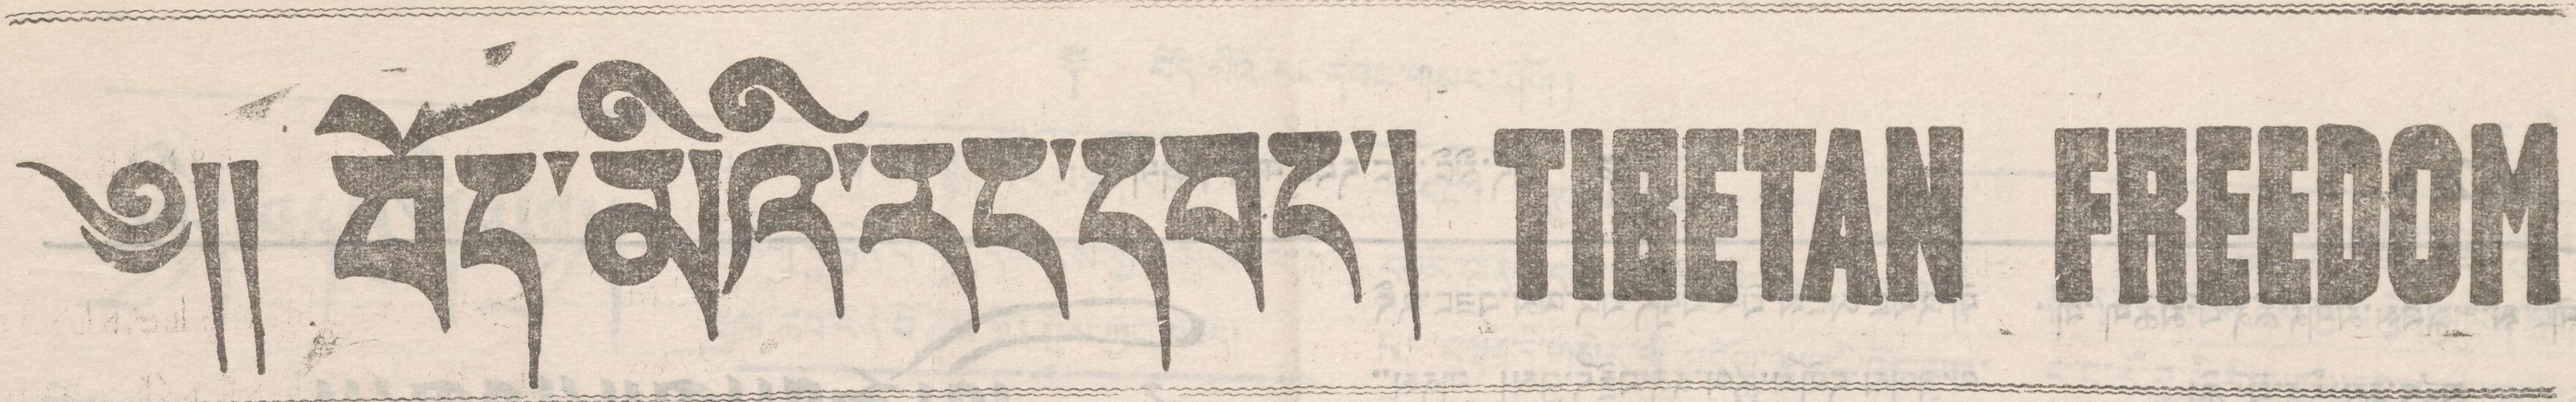༄།། བོད་མིའི་རང་དབང་། TIBETAN FREEDOM
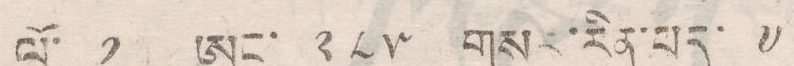ལོ་ ༡ ཨང་ ༢༨༥ གསར་རིན་པར་ ༧
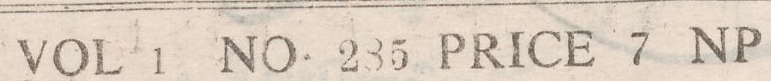VOL 1 NO 285 PRICE 7 NP
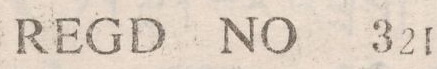REGD NO 321
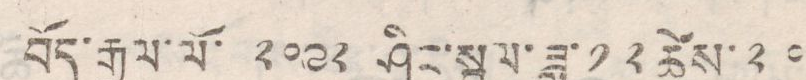བོད་རྒྱལ་ལོ་ ༢༠༩༢ ཤིང་སྤྲུལ་ཟླ་ ༡༢ ཚེས་ ༢༠
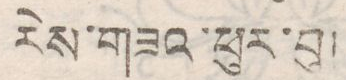རེས་གཟའ་ཕུར་བུ།
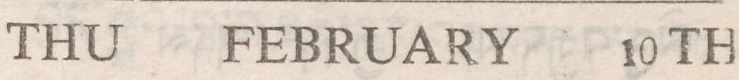THU FEBRUARY 10TH
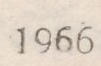1966
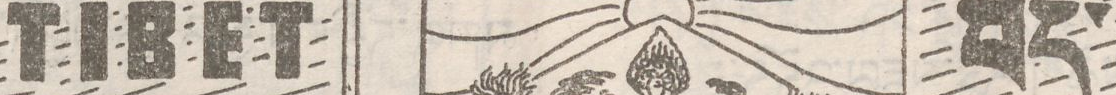TIBET བོད་
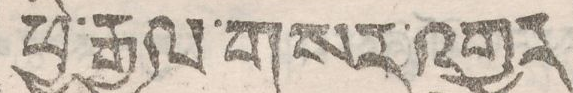ཕྱི་རྒྱལ་གསར་འགྱུར
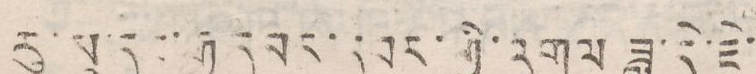རུ་སུ་དང་རྒྱ་དམར་དབར་གྱི་འགལ ཟླ་དེ་ཇེ་
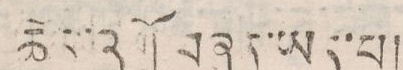ཆེར་འགྲོ བཞན་ཡད་པ།
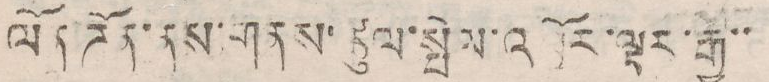ལོན་ཌོན་ནས་གནས་ཚུལ་སྤེལ་འཁོར་ལྟར་རྒྱ་་
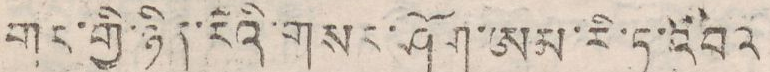གར་གྱི་ཉིན་རེའི་གསར་ཤོག་ཨམ་རི་ཏ་འབའ
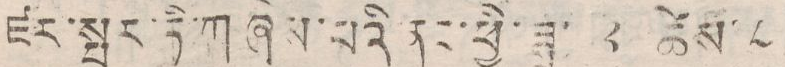ཛར་སྤར་ཏི་ཀ ཞིས་པའི་ནང་ཕྱི་ཟླ་ ༢ ཚེས་ ༨
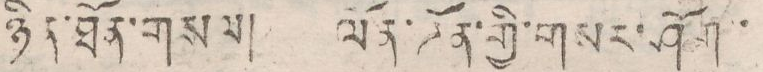ཉིན་ཐོན་གསལ། ལོན་ཌོན་གྱི་གསར་ཤོག་
